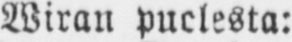Wiran puolesta:
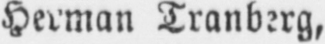Herman Tranberg,
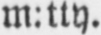m:tty.
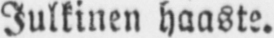Julkinen haaste.
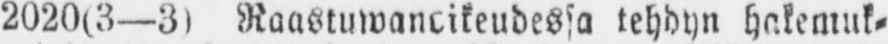2020(8 —3) Raastuwanoikeudessa tehdyn hakemuk-
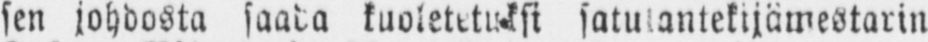sen johdosta saada kuoletetuksi satulantekijämestarin
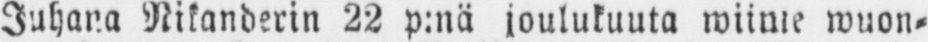Juhana Nikanderin 22 p:nä joulukuuta wiime wuon-
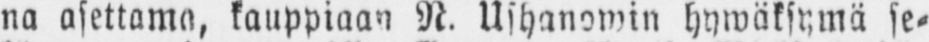na asettama, kauppiaan N. Ushanowin hywäksymä se-
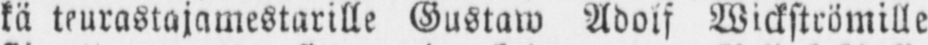kä teurastajamestarille Gustaw Adolf Wickströmille
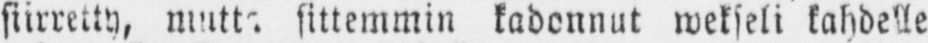siirretty, mutta sittemmin kadonnut wekseli kahdelle
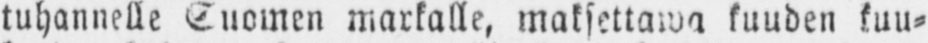tuhannelle Suomen markalle, maksettawa kuuden kuu-
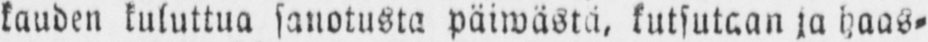kauden kuluttua sanotusta päiwäsrä, kutsutaan ja haas-
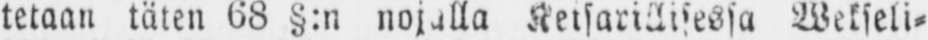tetaan täten 68 §:n nojalla Keisarillisessa Wekseli-
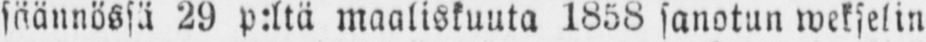säännössä 29 p:ltä maaliskuuta 1858 sanotun wekselin
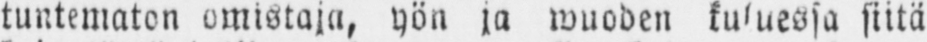tuntematon omistaja, yön ja wuoden kuluessa siitä
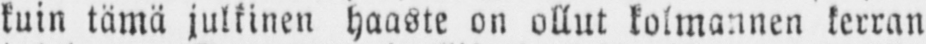kuin tämä julkinen haaste on ollut kolmannen kerran
